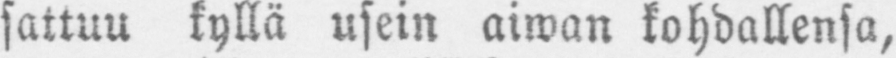sattuu kyllä usein aiwan kohdallensa,
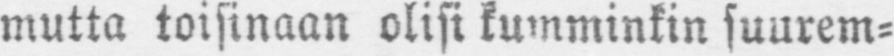mutta toisinaan olisi kumminkin suurem-
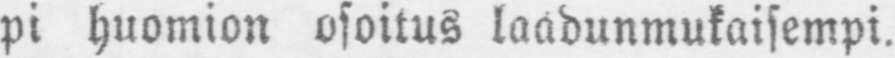pi huomion osoitus laadunmukaisempi.
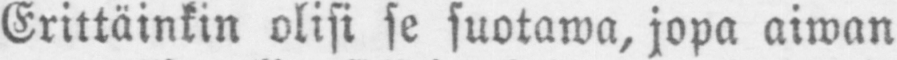Erittäinkin olisi se suotawa, jopa aiwan
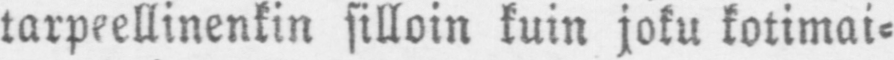tarpeellinenkin silloin kuin joku kotimai-
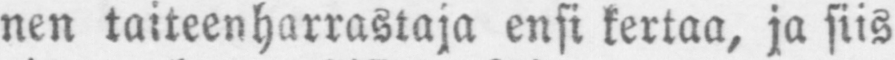nen taiteenharrastaja ensi kertaa, ja siis
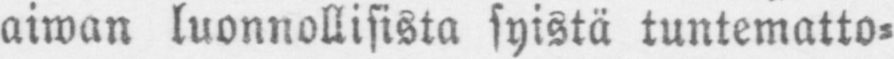aiwan luonnollisista syistä tuntematto-
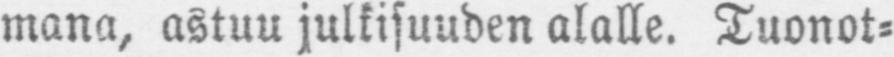mana, astuu julkisuuden alalle. Tuonot-
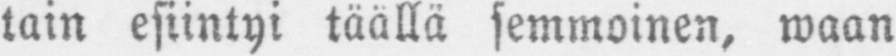tain esiintyi täällä semmoinen, waan
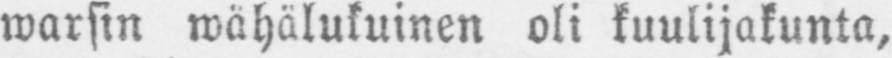warsin wähälukuinen oli kuulijakunta,
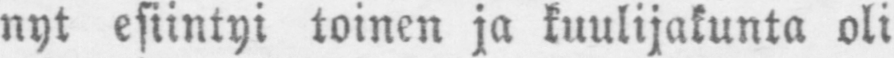nyt esiintyi toinen ja kuulijakunta oli
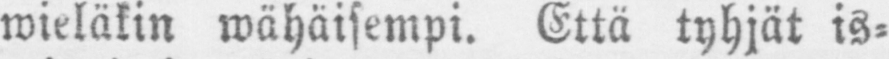wieläkin wähäisempi. Että tyhjät is-
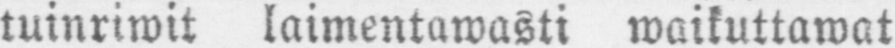tuinriwit laimentawasti waikuttawat
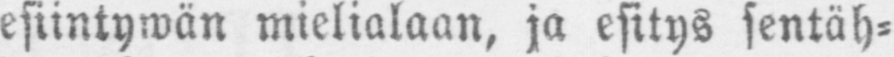esiintywän mielialaan, ja esitys sentäh-
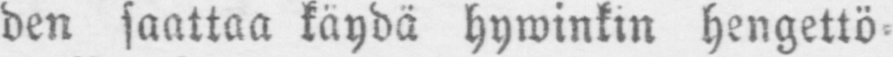den saattaa käydä hywinkin hengettö-
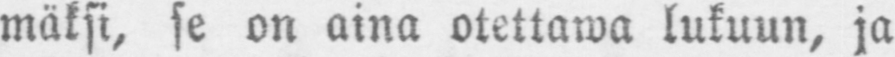mäksi, se on aina otettawa lukuun, ja
